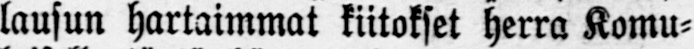lausun hartaimmat kiitokset herra Komu-
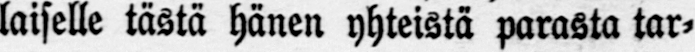laiselle tästä hänen yhteistä parasta tar-
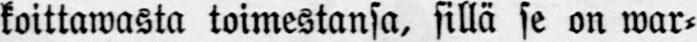koittawasta toimestansa, sillä se on war-
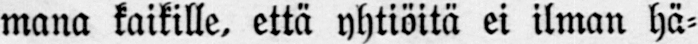mana kaikille, että yhtiöitä ei ilman hä-
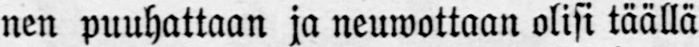nen puuhattaan ja neuwottaan olisi täällä
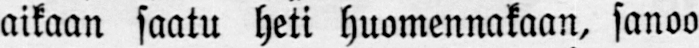aikaan saatu heti huomennakaan, sanoo
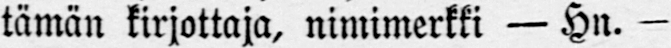tämän kirjottaja, nimimerkki — Hn. —
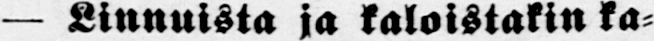— Linnuista ja kaloistakin ka-
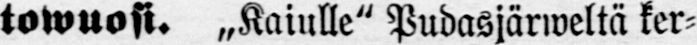towuosi. „Kaiulle" Pudasjärweltä ker-
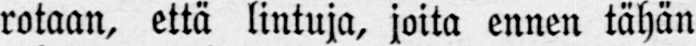rotaan, että lintuja, joita ennen tähän
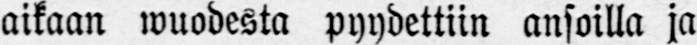aikaan wuodesta pyydettiin ansoilla ja
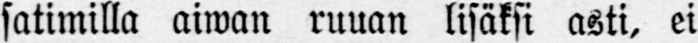satimilla aiwan ruuan lisäksi asti, ei
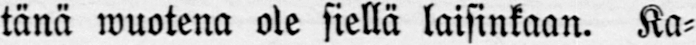tänä wuotena ole siellä laisinkaan. Ka-
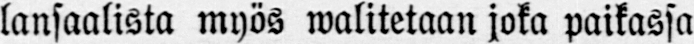lansaalista myös walitetaan joka paikassa
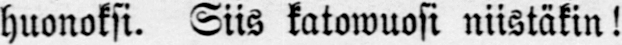huonoksi. Siis katowuosi niistäkin!
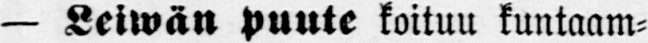— Leiwän puute koituu kuntaam-
